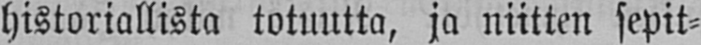historiallista totuutta, ja niitten sepit-
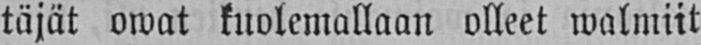täjät owat kuolemallaan olleet walmiit
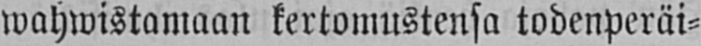wahwistamaan kertomustensa todenperäi-
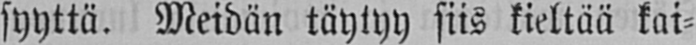syyttä. Meidän täytyy siis kieltää kai-
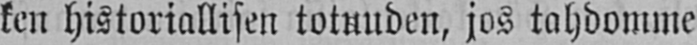ken historiallisen totuuden, jos tahdomme
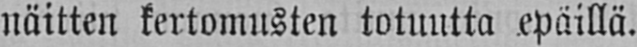näitten kertomusten totuutta epäillä.
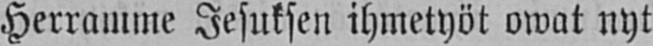Herramme Jesuksen ihmetyöt owat nyt
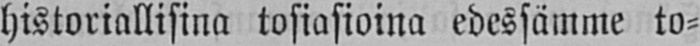historiallisina tosiasioina edessämme to-
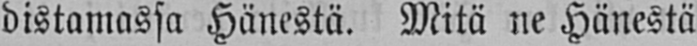distamassa Hänestä. Mitä ne Hänestä
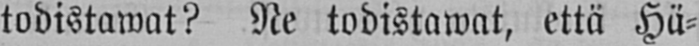todistawat? Ne todistawat, että Hä-
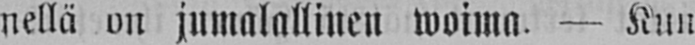nellä on jumalallinen woima. — Kun
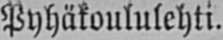Pyhäkoululehti.
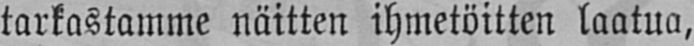tarkastamme näitten ihmetöitten laatua,
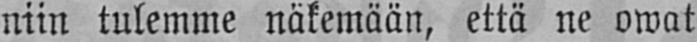niin tulemme näkemään, että ne owat
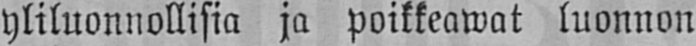yliluonnollisia ja poikkeawat luonnon
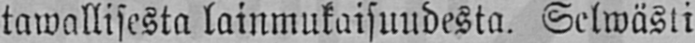tawallisesta lainmukaisuudesta. Selwästi
